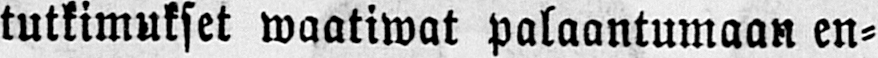tutkimukset waatiwat palaantumaan en-
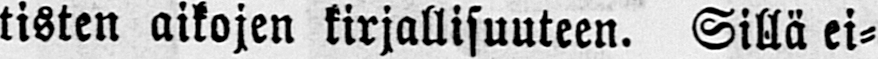tisten aikojen kirjallisuuteen. Sillä ei-
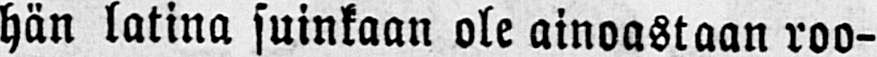hän latina suinkaan ole ainoastaan roo-
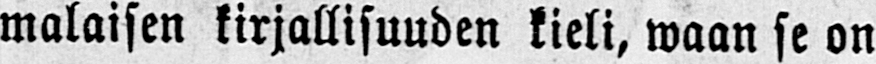malaisen kirjallisuuden kieli, waan se on
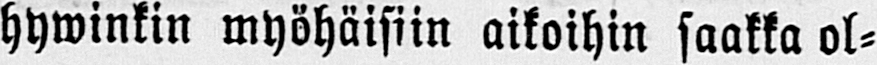hywinkin myöhäisiin aikoihin saakka ol-
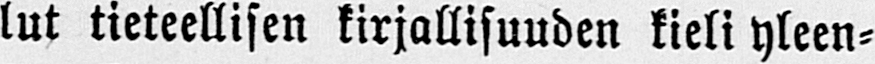lut tieteellisen kirjallisuuden kieli yleen-
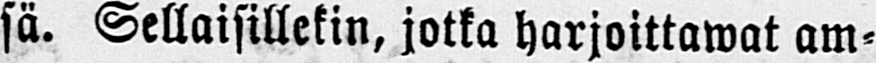sä. Sellaisillekin, jotka harjoittawat am-
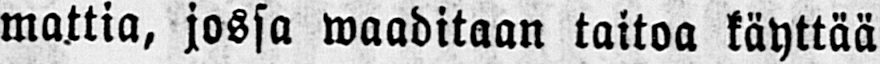mattia, jossa waaditaan taitoa käyttää
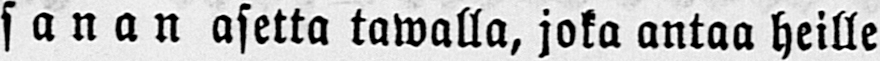sanan asetta tawalla, joka antaa heille
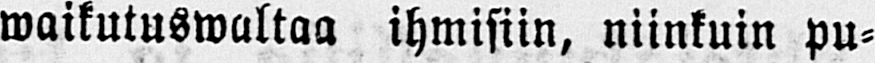waikutuswaltaa ihmisiin, niinkuin pu-
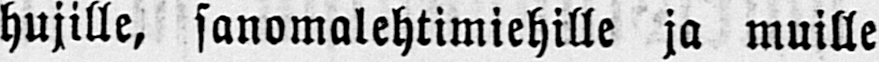hujille, sanomalehtimiehille ja muille
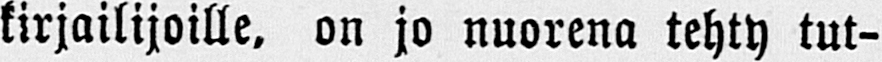kirjailijoille, on jo nuorena tehty tut-
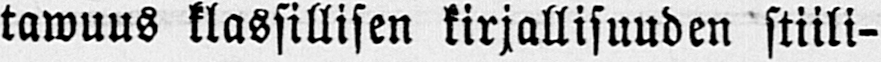tawuus klassillisen kirjallisuuden stiili-
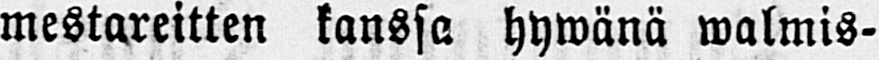mestareitten kanssa hywänä walmis-
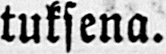tuksena.
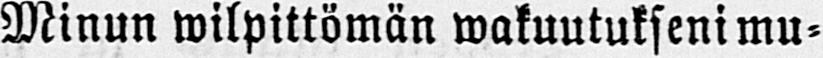Minun wilpittömän wakuutukseni mu-
